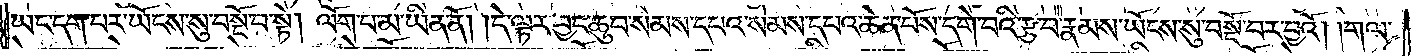ཡང་དག་པར་ཡོངས་སུ་བསྔོ་བ་སྟེ། ལོག་པ་མ་ཡིན་ནོ། །དེ་ལྟར་བྱང་ཆུབ་སེམས་དཔའ་སེམས་དཔའ་ཆེན་པོས་དགེ་བའི་རྩ་བ་རྣམས་ཡོངས་སུ་བསྔོ་བར་བྱའོ། །གལ་
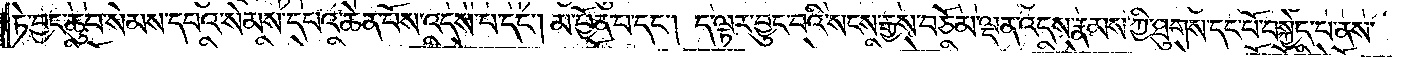ཏེ་བྱང་ཆུབ་སེམས་དཔའ་སེམས་དཔའ་ཆེན་པོས་འདས་པ་དང༌། མ་བྱོན་པ་དང༌། ད་ལྟར་བྱུང་བའི་སངས་རྒྱས་བཅོམ་ལྡན་འདས་རྣམས་ཀྱི་ཐུགས་དང་པོ་བསྐྱེད་པ་ནས་
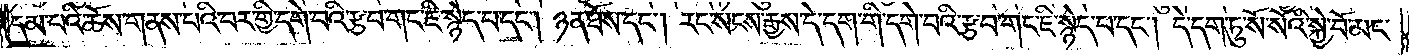དམ་པའི་ཆོས་གནས་པའི་བར་གྱི་དགེ་བའི་རྩ་བ་གང་ཇི་སྙེད་པ་དང༌། ཉན་ཐོས་དང༌། རང་སངས་རྒྱས་དེ་དག་གི་དགེ་བའི་རྩ་བ་གང་ཇི་སྙེད་པ་དང༌། དེ་དག་ཏུ་སོ་སོའི་སྐྱེ་བོ་མང་
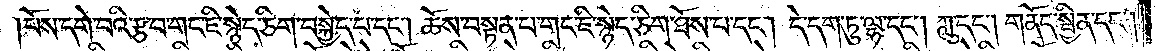པོས་དགེ་བའི་རྩ་བ་གང་ཇི་སྙེད་ཅིག་བསྐྱེད་པ་དང༌། ཆོས་བསྟན་པ་གང་ཇི་སྙེད་ཅིག་ཐོས་པ་དང༌། དེ་དག་ཏུ་ལྷ་དང༌། ཀླུ་དང༌། །གནོད་སྦྱིན་དང༌།
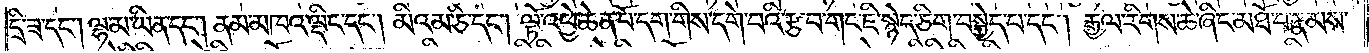དྲི་ཟ་དང༌། ལྷ་མ་ཡིན་དང༌། ནམ་མཁའ་ལྡིང་དང༌། མིའམ་ཅི་དང༌། ལྟོ་འཕྱེ་ཆེན་པོ་དག་གིས་དགེ་བའི་རྩ་བ་གང་ཇི་སྙེད་ཅིག་བསྐྱེད་པ་དང༌། རྒྱལ་རིགས་ཆེ་ཞིང་མཐོ་བ་རྣམས་
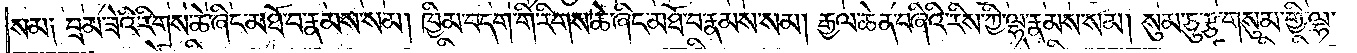སམ༑ བྲམ་ཟེའི་རིགས་ཆེ་ཞིང་མཐོ་བ་རྣམས་སམ། ཁྱིམ་བདག་གི་རིགས་ཆེ་ཞིང་མཐོ་བ་རྣམས་སམ། རྒྱལ་ཆེན་བཞིའི་རིས་ཀྱི་ལྷ་རྣམས་སམ། སུམ་ཅུ་རྩ་གསུམ་གྱི་ལྷ་
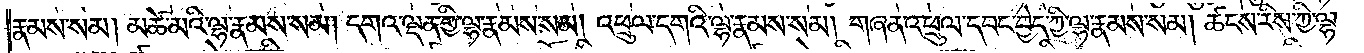རྣམས་སམ། མཚོ་མའི་ལྷ་རྣམས་སམ། དགའ་ལྡན་གྱི་ལྷ་རྣམས་སམ། འཕྲུལ་དགའི་ལྷ་རྣམས་སམ། གཞན་འཕྲུལ་དབང་བྱེད་ཀྱི་ལྷ་རྣམས་སམ། ཚངས་རིས་ཀྱི་ལྷ་
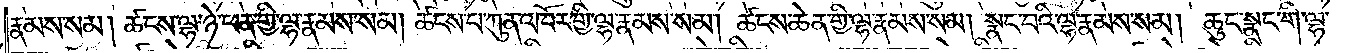རྣམས་སམ། ཚངས་ལྷ་ཉེ་ཕན་གྱི་ལྷ་རྣམས་སམ། ཚངས་པ་ཀུན་འཁོར་གྱི་ལྷ་རྣམས་སམ། ཚངས་ཆེན་གྱི་ལྷ་རྣམས་སམ། སྣང་བའི་ལྷ་རྣམས་སམ། ཆུང་སྣང་གི་ལྷ་
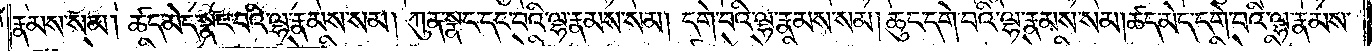རྣམས་སམ། ཚད་མེད་སྣང་བའི་ལྷ་རྣམས་སམ། ཀུན་སྣང་དང་བའི་ལྷ་རྣམས་སམ། དགེ་བའི་ལྷ་རྣམས་སམ། ཆུང་དགེ་བའི་ལྷ་རྣམས་སམ། ཚད་མེད་དགེ་བའི་ལྷ་རྣམས་
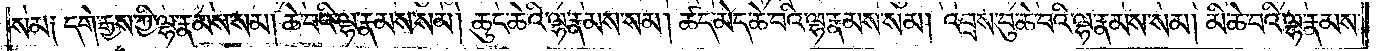སམ༑ དགེ་རྒྱས་ཀྱི་ལྷ་རྣམས་སམ། ཆེ་བའི་ལྷ་རྣམས་སམ། ཆུང་ཆེའི་ལྷ་རྣམས་སམ། ཚད་མེད་ཆེ་བའི་ལྷ་རྣམས་སམ། འབྲས་བུ་ཆེ་བའི་ལྷ་རྣམས་སམ། མི་ཆེ་བའི་ལྷ་རྣམས་
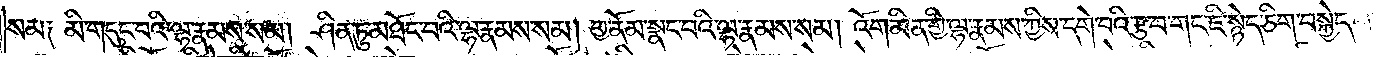སམ༑ མི་གདུང་བའི་ལྷ་རྣམས་སམ། ཤིན་ཏུ་མཐོང་བའི་ལྷ་རྣམས་སམ། གྱ་ནོམ་སྣང་བའི་ལྷ་རྣམས་སམ། འོག་མིན་གྱི་ལྷ་རྣམས་ཀྱིས་དགེ་བའི་རྩ་བ་གང་ཇི་སྙེད་ཅིག་བསྐྱེད་པ་
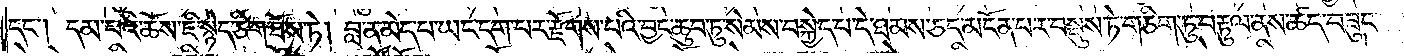དང༌། དམ་པའི་ཆོས་ཇི་སྙེད་ཅིག་ཐོས་ཏེ། བླ་ན་མེད་པ་ཡང་དག་པར་རྫོགས་པའི་བྱང་ཆུབ་ཏུ་སེམས་བསྐྱེད་པ་དེ་ཐམས་ཅད་མངོན་བར་བསྡུས་ཏེ་གཅིག་ཏུ་བརྟུལ་ནས་ཚད་བཟུང་
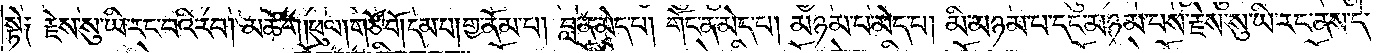སྟེ༑ རྗེས་སུ་ཡི་རང་བའི་རབ། མཆོག །ཕུལ། གཙོ་བོ། དམ་པ། གྱ་ནོམ་པ། བླ་ན་མེད་པ། གོང་ན་མེད་པ། མཉམ་པ་མེད་པ། མི་མཉམ་པ་དང་མཉམ་པས་རྗེས་སུ་ཡི་རང་ནས་དེ་
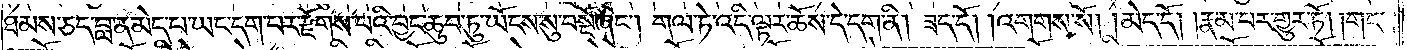ཐམས་ཅད་བླ་ན་མེད་པ་ཡང་དག་པར་རྫོགས་པའི་བྱང་ཆུབ་ཏུ་ཡོངས་སུ་བསྔོ་ཞིང༌། གལ་ཏེ་འདི་ལྟར་ཆོས་དེ་དག་ནི། ཟད་དོ། །འགགས་སོ། །མེད་དོ། རྣམ་པར་གྱུར་ཏོ། གང་
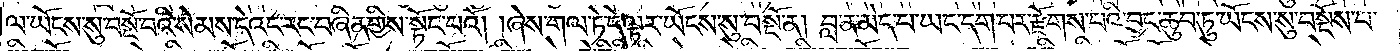ལ་ཡོངས་སུ་བསྔོ་བའི་སེམས་དེའང་རང་བཞིན་གྱིས་སྟོང་པའོ། །ཞེས་གལ་ཏེ་དེ་ལྟར་ཡོངས་སུ་བསྔོ་ན། བླ་ན་མེད་པ་ཡང་དག་པར་རྫོགས་པའི་བྱང་ཆུབ་ཏུ་ཡོངས་སུ་བསྔོས་པ་
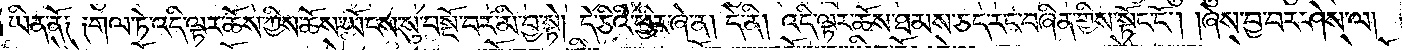ཡིན་ནོ༑ ༑གལ་ཏེ་འདི་ལྟར་ཆོས་ཀྱིས་ཆོས་ཡོངས་སུ་བསྔོ་བར་མི་བྱ་སྟེ། དེ་ཅིའི་ཕྱིར་ཞེ་ན། དེ་ནི། འདི་ལྟར་ཆོས་ཐམས་ཅད་རང་བཞིན་གྱིས་སྟོང་ངོ༌། །ཞེས་བྱ་བར་ཤེས་ལ།
